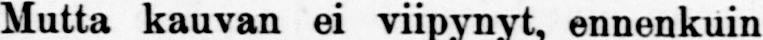Mutta kauvan ei viipynyt ennenkuin
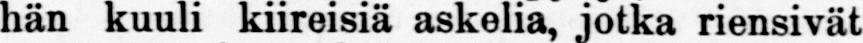hän kuuli kiireisiä askelia, jotka riensivät
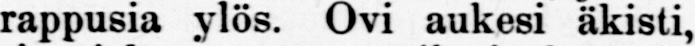rappusia ylös. Ovi aukesi äkisti, ja Juan
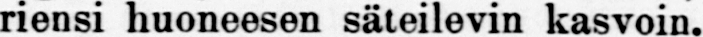riensi huonessen säteilevin kasvoin.
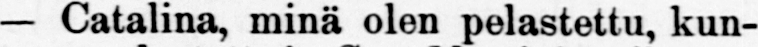— Catalina, minä olen pelastettu, kun-
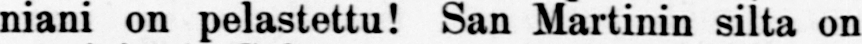niani on pelastettu! San Martinin silta on
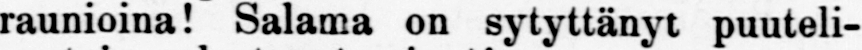raunioilla! Salama on sytyttänyt puuteli-
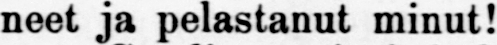neet ja pelastanut minut!
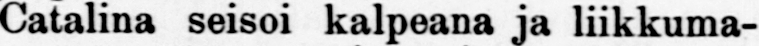Catalina seisoi kalpeana liikkuma-
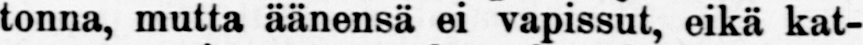tonna, mutta äänensä ei vapissut, eikä kat-
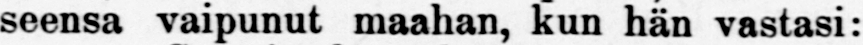seensa vaipunut maahan, kun hän vastasi:
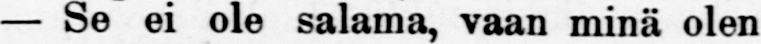— Se ei ole salama, vaan minä olen
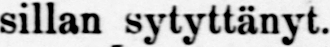sillan sytyttänyt.
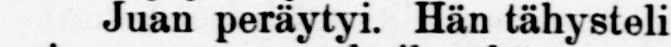— Juan peräytyi. Hän tähysteli kysyvästi
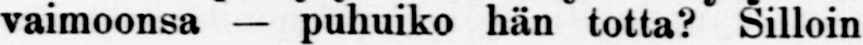vaimoonsa — puhuiko hän totta? Silloin
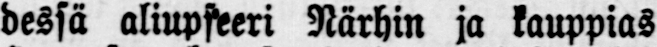dessä aliupseeri Närhin ja kauppias
